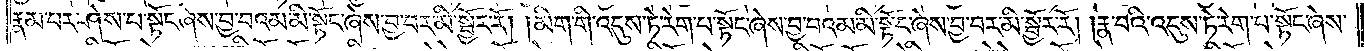རྣམ་པར་ཤེས་པ་སྟོང་ཞེས་བྱ་བའམ་མི་སྟོང་ཞེས་བྱ་བར་མི་སྦྱོར་རོ། །མིག་གི་འདུས་ཏེ་རེག་པ་སྟོང་ཞེས་བྱ་བའམ་མི་སྟོང་ཞེས་བྱ་བར་མི་སྦྱོར་རོ། །རྣ་བའི་འདུས་ཏེ་རེག་པ་སྟོང་ཞེས་
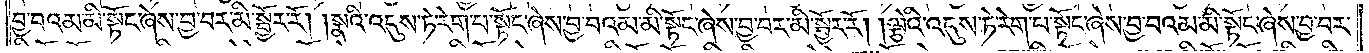བྱ་བའམ་མི་སྟོང་ཞེས་བྱ་བར་མི་སྦྱོར་རོ། །སྣའི་འདུས་ཏེ་རེག་པ་སྟོང་ཞེས་བྱ་བའམ་མི་སྟོང་ཞེས་བྱ་བར་མི་སྦྱོར་རོ། །ལྕེའི་འདུས་ཏེ་རེག་པ་སྟོང་ཞེས་བྱ་བའམ་མི་སྟོང་ཞེས་བྱ་བར་
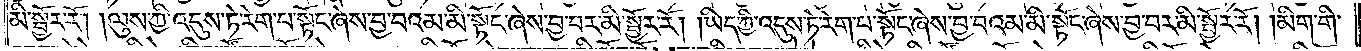མི་སྦྱོར་རོ། །ལུས་ཀྱི་འདུས་ཏེ་རེག་པ་སྟོང་ཞེས་བྱ་བའམ་མི་སྟོང་ཞེས་བྱ་བར་མི་སྦྱོར་རོ། །ཡིད་ཀྱི་འདུས་ཏེ་རེག་པ་སྟོང་ཞེས་བྱ་བའམ་མི་སྟོང་ཞེས་བྱ་བར་མི་སྦྱོར་རོ། །མིག་གི་
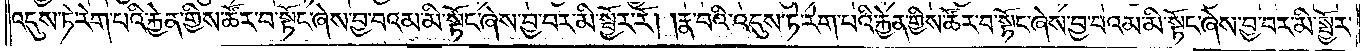འདུས་ཏེ་རེག་པའི་རྐྱེན་གྱིས་ཚོར་བ་སྟོང་ཞེས་བྱ་བའམ་མི་སྟོང་ཞེས་བྱ་བར་མི་སྦྱོར་རོ། །རྣ་བའི་འདུས་ཏེ་རེག་པའི་རྐྱེན་གྱིས་ཚོར་བ་སྟོང་ཞེས་བྱ་བའམ་མི་སྟོང་ཞེས་བྱ་བར་མི་སྦྱོར་
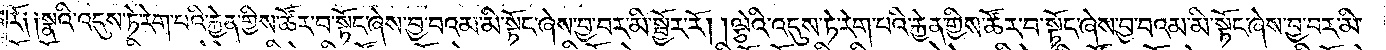རོ༑ ༑སྣའི་འདུས་ཏེ་རེག་པའི་རྐྱེན་གྱིས་ཚོར་བ་སྟོང་ཞེས་བྱ་བའམ་མི་སྟོང་ཞེས་བྱ་བར་མི་སྦྱོར་རོ། །ལྕེའི་འདུས་ཏེ་རེག་པའི་རྐྱེན་གྱིས་ཚོར་བ་སྟོང་ཞེས་བྱ་བའམ་མི་སྟོང་ཞེས་བྱ་བར་མི་
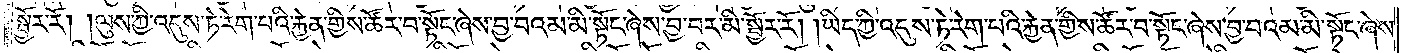སྦྱོར་རོ། །ལུས་ཀྱི་འདུས་ཏེ་རེག་པའི་རྐྱེན་གྱིས་ཚོར་བ་སྟོང་ཞེས་བྱ་བའམ་མི་སྟོང་ཞེས་བྱ་བར་མི་སྦྱོར་རོ། །ཡིད་ཀྱི་འདུས་ཏེ་རེག་པའི་རྐྱེན་གྱིས་ཚོར་བ་སྟོང་ཞེས་བྱ་བའམ་མི་སྟོང་ཞེས་
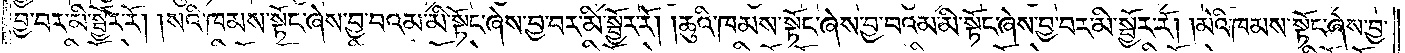བྱ་བར་མི་སྦྱོར་རོ། །སའི་ཁམས་སྟོང་ཞེས་བྱ་བའམ་མི་སྟོང་ཞེས་བྱ་བར་མི་སྦྱོར་རོ། །ཆུའི་ཁམས་སྟོང་ཞེས་བྱ་བའམ་མི་སྟོང་ཞེས་བྱ་བར་མི་སྦྱོར་རོ། །མེའི་ཁམས་སྟོང་ཞེས་བྱ་
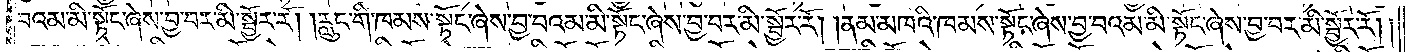བའམ་མི་སྟོང་ཞེས་བྱ་བར་མི་སྦྱོར་རོ། །རླུང་གི་ཁམས་སྟོང་ཞེས་བྱ་བའམ་མི་སྟོང་ཞེས་བྱ་བར་མི་སྦྱོར་རོ། །ནམ་མཁའི་ཁམས་སྟོང་ཞེས་བྱ་བའམ་མི་སྟོང་ཞེས་བྱ་བར་མི་སྦྱོར་རོ། །
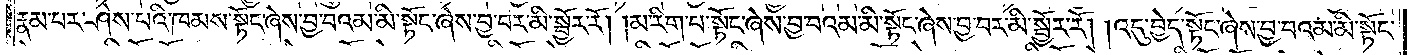རྣམ་པར་ཤེས་པའི་ཁམས་སྟོང་ཞེས་བྱ་བའམ་མི་སྟོང་ཞེས་བྱ་བར་མི་སྦྱོར་རོ། །མ་རིག་པ་སྟོང་ཞེས་བྱ་བའམ་མི་སྟོང་ཞེས་བྱ་བར་མི་སྦྱོར་རོ། །འདུ་བྱེད་སྟོང་ཞེས་བྱ་བའམ་མི་སྟོང་
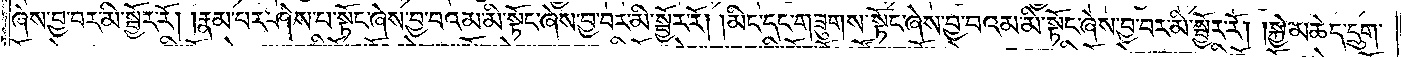ཞེས་བྱ་བར་མི་སྦྱོར་རོ། །རྣམ་པར་ཤེས་པ་སྟོང་ཞེས་བྱ་བའམ་མི་སྟོང་ཞེས་བྱ་བར་མི་སྦྱོར་རོ། །མིང་དང་གཟུགས་སྟོང་ཞེས་བྱ་བའམ་མི་སྟོང་ཞེས་བྱ་བར་མི་སྦྱོར་རོ། །སྐྱེ་མཆེད་དྲུག་
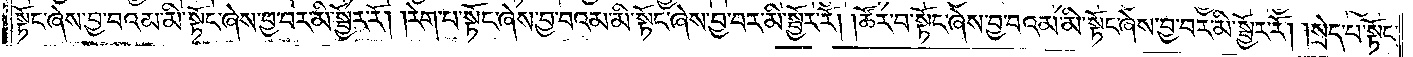སྟོང་ཞེས་བྱ་བའམ་མི་སྟོང་ཞེས་བྱ་བར་མི་སྦྱོར་རོ། །རེག་པ་སྟོང་ཞེས་བྱ་བའམ་མི་སྟོང་ཞེས་བྱ་བར་མི་སྦྱོར་རོ། །ཚོར་བ་སྟོང་ཞེས་བྱ་བའམ་མི་སྟོང་ཞེས་བྱ་བར་མི་སྦྱོར་རོ། །སྲེད་པ་སྟོང་
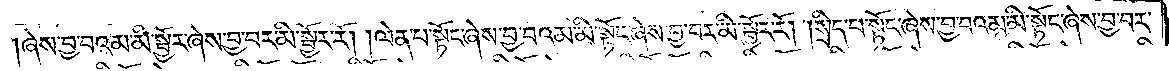ཞེས་བྱ་བའམ་མི་སྦྱོར་ཞེས་བྱ་བར་མི་སྦྱོར་རོ། །ལེན་པ་སྟོང་ཞེས་བྱ་བའམ་མི་སྟོང་ཞེས་བྱ་བར་མི་སྦྱོར་རོ། །སྲིད་པ་སྟོང་ཞེས་བྱ་བའམ་མི་སྟོང་ཞེས་བྱ་བར་
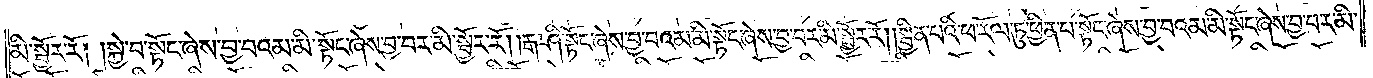མི་སྦྱོར་རོ། །སྐྱེ་བ་སྟོང་ཞེས་བྱ་བའམ་མི་སྟོང་ཞེས་བྱ་བར་མི་སྦྱོར་རོ། །རྒ་ཤི་སྟོང་ཞེས་བྱ་བའམ་མི་སྟོང་ཞེས་བྱ་བར་མི་སྦྱོར་རོ། །སྦྱིན་པའི་ཕ་རོལ་ཏུ་ཕྱིན་པ་སྟོང་ཞེས་བྱ་བའམ་མི་སྟོང་ཞེས་བྱ་བར་མི་
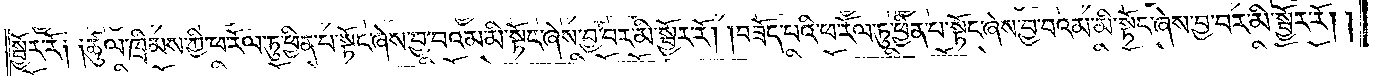སྦྱོར་རོ༑ ༑ཚུལ་ཁྲིམས་ཀྱི་ཕ་རོལ་ཏུ་ཕྱིན་པ་སྟོང་ཞེས་བྱ་བའམ་མི་སྟོང་ཞེས་བྱ་བར་མི་སྦྱོར་རོ། །བཟོད་པའི་ཕ་རོལ་ཏུ་ཕྱིན་པ་སྟོང་ཞེས་བྱ་བའམ་མི་སྟོང་ཞེས་བྱ་བར་མི་སྦྱོར་རོ། །
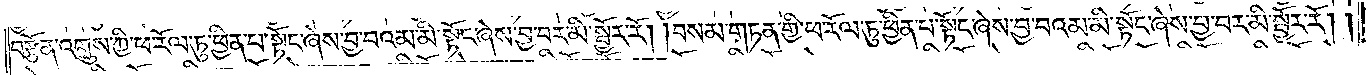བརྩོན་འགྲུས་ཀྱི་ཕ་རོལ་ཏུ་ཕྱིན་པ་སྟོང་ཞེས་བྱ་བའམ་མི་སྟོང་ཞེས་བྱ་བར་མི་སྦྱོར་རོ། །བསམ་གཏན་གྱི་ཕ་རོལ་ཏུ་ཕྱིན་པ་སྟོང་ཞེས་བྱ་བའམ་མི་སྟོང་ཞེས་བྱ་བར་མི་སྦྱོར་རོ། །
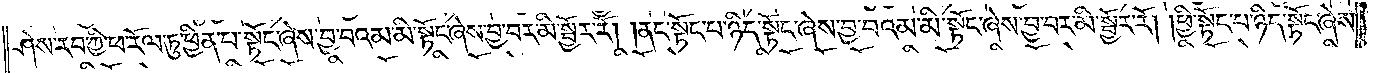ཤེས་རབ་ཀྱི་ཕ་རོལ་ཏུ་ཕྱིན་པ་སྟོང་ཞེས་བྱ་བའམ་མི་སྟོང་ཞེས་བྱ་བར་མི་སྦྱོར་རོ། །ནང་སྟོང་པ་ཉིད་སྟོང་ཞེས་བྱ་བའམ་མི་སྟོང་ཞེས་བྱ་བར་མི་སྦྱོར་རོ། །ཕྱི་སྟོང་པ་ཉིད་སྟོང་ཞེས་
